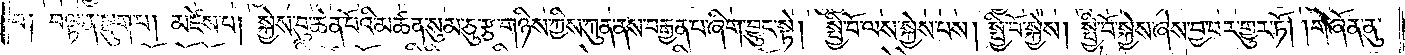བ། བལྟ་ན་སྡུག་པ། མཛེས་པ། སྐྱེས་བུ་ཆེན་པོའི་མཚན་སུམ་ཅུ་རྩ་གཉིས་ཀྱིས་ཀུན་ནས་བརྒྱན་པ་ཞིག་བྱུང་སྟེ། སྤྱི་བོ་ལས་སྐྱེས་པས། སྤྱི་བོ་སྐྱེས། སྤྱི་བོ་སྐྱེས་ཞེས་བྱ་བར་གྱུར་ཏོ། །གཞོན་ནུ་
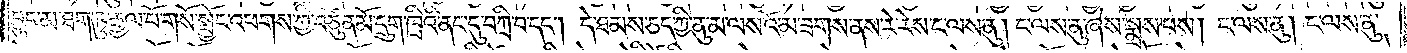བྱུང་མ་ཐག་ཏུ་རྒྱལ་པོ་གསོ་སྦྱོང་འཕགས་ཀྱི་བཙུན་མོ་དྲུག་ཁྲིའི་ནང་དུ་བཀྲི་བ་དང༌། དེ་ཐམས་ཅད་ཀྱི་ནུ་མ་ལས་འོ་མ་ཟགས་ནས་རེ་རེས་ང་ལས་ནུ། ང་ལས་ནུ་ཞེས་སྨྲས་པས། ང་ལས་ནུ། ང་ལས་ནུ་
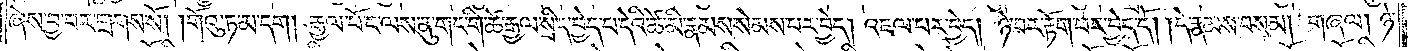ཞེས་བྱ་བར་གྲགས་སོ། །གོའུ་ཏ་མ་དག། རྒྱལ་པོ་ང་ལས་ནུ་གང་གི་ཚེ་རྒྱལ་སྲིད་བྱེད་པ་དེའི་ཚེ་མི་རྣམས་སེམས་པར་བྱེད། འཇལ་བར་བྱེད། ཉེ་བར་རྟོག་པར་བྱེད་དོ། །དེ་རྣམས་བསམ། གཞལ། ཉེ་
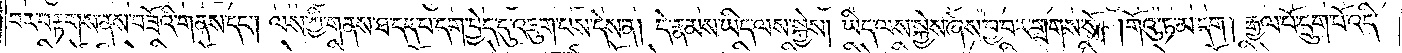བར་བརྟགས་ནས་བཟོའི་གནས་དང༌། ལས་ཀྱི་གནས་ཐ་དད་པ་དག་བྱེད་དུ་འཇུག་པས་དེ་ན། དེ་རྣམས་ཡིད་ལས་སྐྱེས། ཡིད་ལས་སྐྱེས་ཞེས་བྱ་བར་གྲགས་སོ། །གོའུ་ཏ་མ་དག །རྒྱལ་པོ་དྲུག་པོ་འདི་
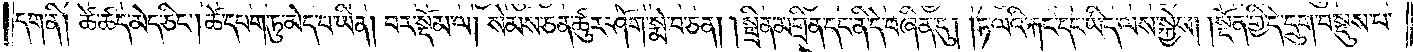དག་ནི། ཚེ་ཚད་མེད་ཅིང༌། ཚེ་དཔག་ཏུ་མེད་པ་ཡིན། བར་སྡོམ་ལ། སེམས་ཅན་ཚུར་ཤོག་སྨེ་བ་ཅན། སྤྲིན་མགྲིན་དང་ནི་དེ་བཞིན་དུ། །ཏ་ལའི་རྐང་དང་ཡིད་ལས་སྐྱེས། །སྔོན་གྱི་དེ་དྲུག་བསྡུས་པ་
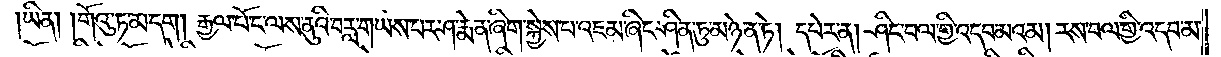ཡིན། །གོའུ་ཏ་མ་དག །རྒྱལ་པོ་ང་ལས་ནུའི་བརླ་གཡས་པར་ཤ་རྨེན་ཞིག་སྐྱེས་པ་འཇམ་ཞིང་ཤིན་ཏུ་མཉེན་ཏེ། དཔེར་ན། ཤིང་བལ་གྱི་འདབ་མའམ། རས་བལ་གྱི་འདབ་མ་
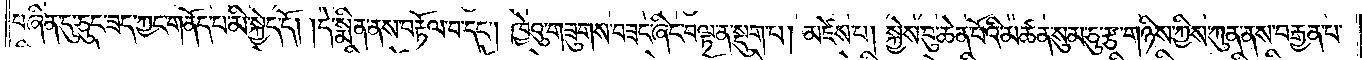བཞིན་དུ་ཅུང་ཟད་ཀྱང་གནོད་པ་མི་སྐྱེད་དོ། །དེ་སྨིན་ནས་བརྟོལ་བ་དང༌། ཁྱེའུ་གཟུགས་བཟང་ཞིང་བལྟ་ན་སྡུག་པ། མཛེས་པ། སྐྱེས་བུ་ཆེན་པོའི་མཚན་སུམ་ཅུ་རྩ་གཉིས་ཀྱིས་ཀུན་ནས་བརྒྱན་པ་
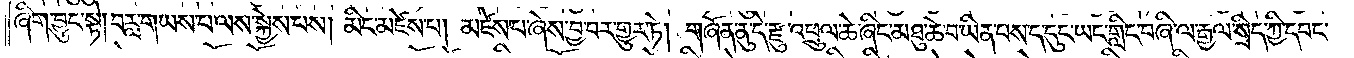ཞིག་བྱུང་སྟེ། བརླ་གཡས་པ་ལས་སྐྱེས་པས། མིང་མཛེས་པ། མཛེས་པ་ཞེས་བྱ་བར་གྱུར་ཏེ། གཞོན་ནུ་དེ་རྫུ་འཕྲུལ་ཆེ་ཞིང་མཐུ་ཆེ་བ་ཡིན་པས་ད་དུང་ཡང་གླིང་བཞི་ལ་རྒྱལ་སྲིད་ཀྱི་དབང་
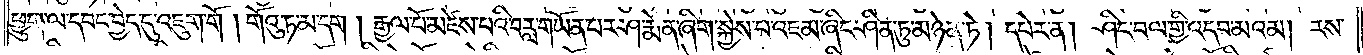ཕྱུག་ལ་དབང་བྱེད་དུ་འཇུག་གོ །གོའུ་ཏ་མ་དག །རྒྱལ་པོ་མཛེས་པའི་བརླ་གཡོན་པར་ཤ་རྨེན་ཞིག་སྐྱེས་པ་འཇམ་ཞིང་ཤིན་ཏུ་མཉེན་ཏེ། དཔེར་ན། ཤིང་བལ་གྱི་འདབ་མའམ། རས་
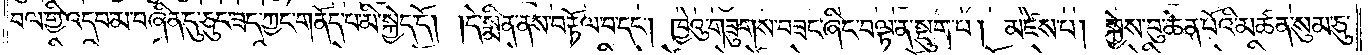བལ་གྱི་འདབ་མ་བཞིན་དུ་ཅུང་ཟད་ཀྱང་གནོད་པ་མི་སྐྱེད་དོ། །དེ་སྨིན་ནས་བརྟོལ་བ་དང༌། ཁྱེའུ་གཟུགས་བཟང་ཞིང་བལྟ་ན་སྡུག་པ། མཛེས་པ། སྐྱེས་བུ་ཆེན་པོའི་མཚན་སུམ་ཅུ་
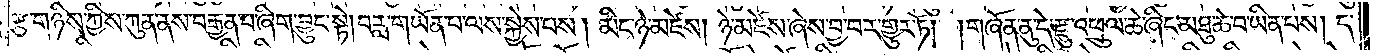རྩ་གཉིས་ཀྱིས་ཀུན་ནས་བརྒྱན་པ་ཞིག་བྱུང་སྟེ། བརླ་གཡོན་པ་ལས་སྐྱེས་པས། མིང་ཉེ་མཛེས། ཉེ་མཛེས་ཞེས་བྱ་བར་གྱུར་ཏོ། །གཞོན་ནུ་དེ་རྫུ་འཕྲུལ་ཆེ་ཞིང་མཐུ་ཆེ་བ་ཡིན་པས། ད་
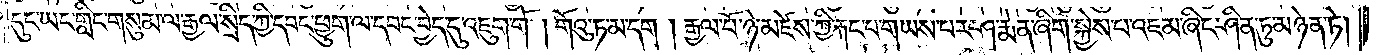དུང་ཡང་གླིང་གསུམ་ལ་རྒྱལ་སྲིད་ཀྱི་དབང་ཕྱུག་ལ་དབང་བྱེད་དུ་འཇུག་གོ །གོའུ་ཏ་མ་དག །རྒྱལ་པོ་ཉེ་མཛེས་ཀྱི་རྐང་པ་གཡས་པར་ཤ་རྨེན་ཞིག་སྐྱེས་པ་འཇམ་ཞིང་ཤིན་ཏུ་མཉེན་ཏེ།
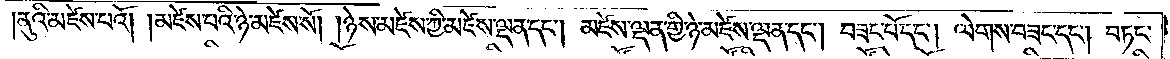།ནུའི་མཛེས་པའོ། །མཛེས་པའི་ཉེ་མཛེས་སོ། །ཉེས་མཛེས་ཀྱི་མཛེས་ལྡན་དང༌། མཛེས་ལྡན་གྱི་ཉེ་མཛེས་ལྡན་དང༌། བཟང་པོ་དང༌། ལེགས་བཟང་དང༌། བཏང་
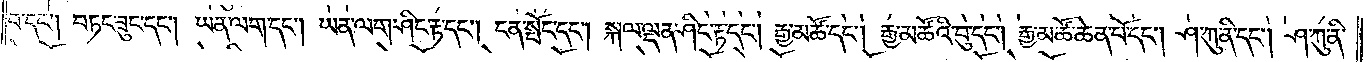བ་དང༌། བཏང་ཟུང་དང༌། ཡན་ལག་དང༌། ཡན་ལག་ཤིང་རྟ་དང༌། ངན་སྤོང་དང༌། སྐལ་ལྡན་ཤིང་རྟ་དང༌། རྒྱ་མཚོ་དང༌། རྒྱ་མཚོའི་བུ་དང༌། རྒྱ་མཚོ་ཆེན་པོ་དང༌། ཤ་ཀུ་ནི་དང༌། ཤ་ཀུ་ནི་
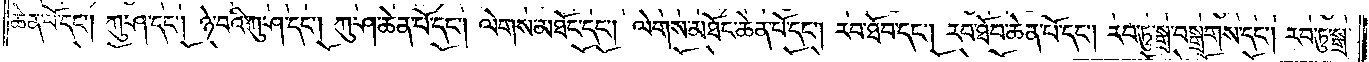ཆེན་པོ་དང༌། ཀུ་ཤ་དང༌། ཉེ་བའི་ཀུ་ཤ་དང༌། ཀུ་ཤ་ཆེན་པོ་དང༌། ལེགས་མཐོང་དང༌། ལེགས་མཐོང་ཆེན་པོ་དང༌། རབ་ཐོབ་དང༌། རབ་ཐོབ་ཆེན་པོ་དང༌། རབ་ཏུ་སྒྲ་བསྒྲགས་དང༌། རབ་ཏུ་སྒྲ་
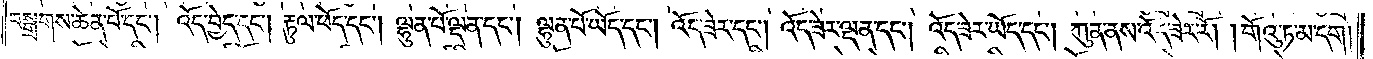བསྒྲགས་ཆེན་པོ་དང༌། འོད་བྱེད་དང༌། རྟུལ་ཕོད་དང༌། ལྷུན་པོ་ལྡན་དང༌། ལྷུན་པོ་ཡོད་དང༌། འོད་ཟེར་དང༌། འོད་ཟེར་ལྡན་དང༌། འོད་ཟེར་ཡོད་དང༌། ཀུན་ནས་འོད་ཟེར་རོ། །གོའུ་ཏ་མ་དག །
